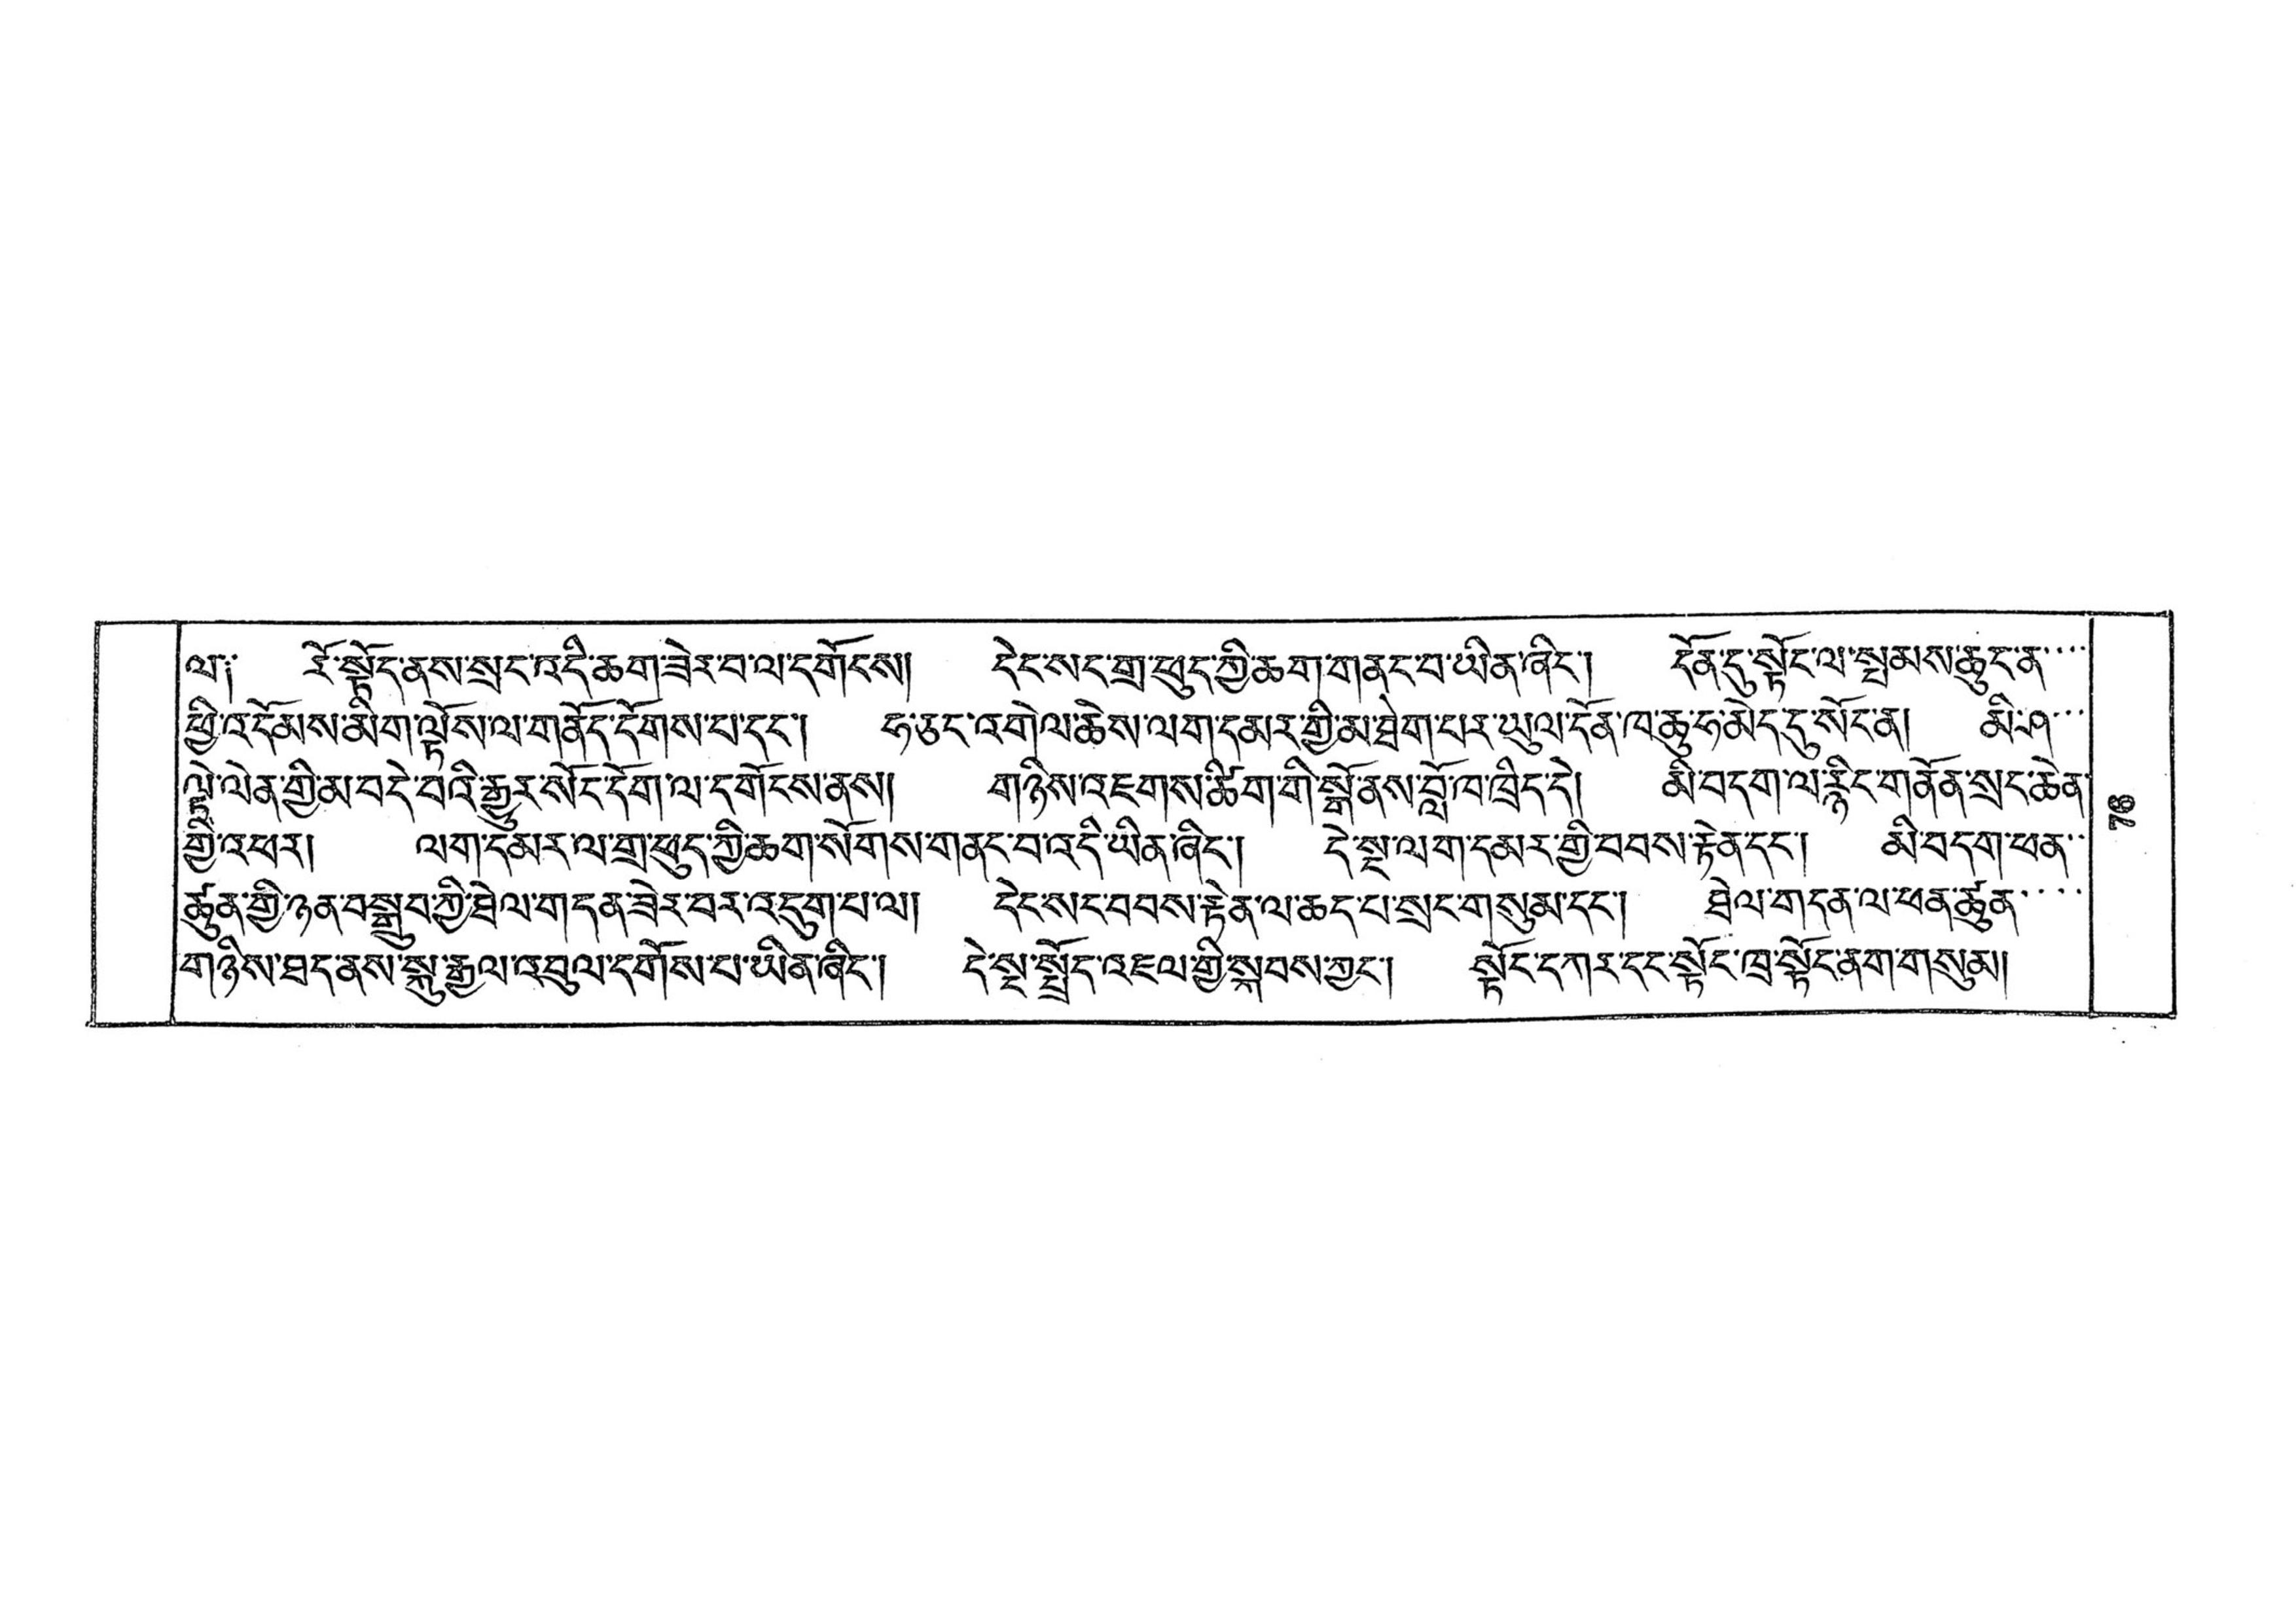ལ༑ རོ་སྟོད་ནས་སྲང་འདི་ཆག་ཟེར་བ་ལ་དགོངས། དེང་སང་གྲ་ཕུད་ཀྱི་ཆག་གནང་པ་ཡིན་ཞིང་། དོན་དུ་སྟོང་ལ་སྤམས་ཆུང་ན་་་་
ཕྱི་འདོམས་མིག་ལྟོས་ལ་གནོད་དོགས་པ་དང་། ཧ་ཅང་འགེལ་ཆེས་ལག་དམར་གྱི་མ་ཐེག་པར་ཡུལ་དོན་ཁ་ཆུ་ཧ་མེད་དུ་སོང་ན། མི་ཤི་་་
ལྟེ་ལེན་གྱི་མ་བདེ་བའི་རྒྱུར་སོང་དོག་ལ་དགོངས་ནས། གཉིས་འཇགས་ཚིག་གི་སྒོ་ནས་བློ་བ་ཁྲིད་དེ། མི་བདག་ལ་རྙིང་གནོན་སྲང་ཆེན་
གྱི་འཕར། ལག་དམར་ལ་གྲ་ཕུད་ཀྱི་ཆག་སོགས་གནང་བ་འདི་ཡིན་ཞིང་། དེ་སྔ་ལག་དམར་གྱི་བབས་རྟེན་དང་། མི་བདག་ཕན་་
ཚུན་གྱི་ཉན་བསྒྲུབ་ཀྱི་ཐེལ་གདན་ཟེར་བར་འདུག་པ་ལ། དེང་སང་བབས་རྟེན་ལ་ཆད་པ་སྲང་གསུམ་དང་། ཐེལ་གདན་ལ་ཕན་ཚུན་་་
གཉིས་ཐད་ནས་སྐུ་རྒྱལ་འབུལ་དགོས་པ་ཡིན་ཞིང་། དེ་སྔ་སྤྲོད་འཇལ་གྱི་སྐབས་ཀྱང་། སྟོང་དཀར་དང་སྟོང་ཁྲ་སྟོང་ནག་གསུམ།
